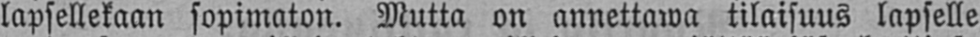lapsellekaan sopimaton. Mutta on annettawa tilaisuus lapselle
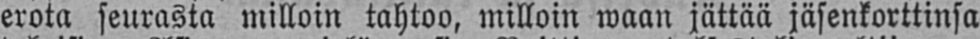erota seurasta milloin tahtoo, milloin waan jättää jäsenkorttinsa
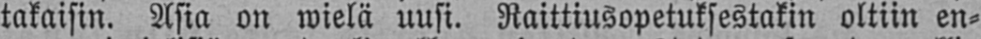takaisin. Asia on wielä uusi. Raittiusopetuksestakin oltiin en-
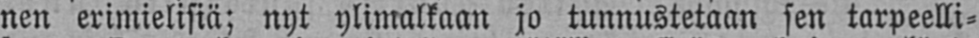nen erimielisiä; nyt ylimalkaan jo tunnustetaan sen tarpeelli-
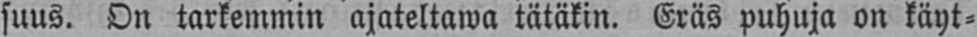suus. On tarkemmin ajateltawa tätäkin. Eräs puhuja on käyt-
